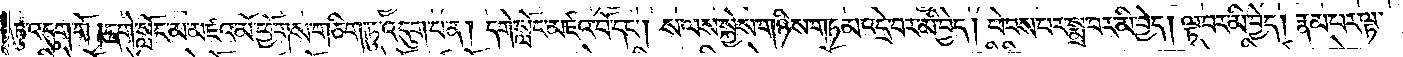ཏུ་འདུག་གོ །དགེ་སློང་མ་མཛའ་མོ་ཕྱོགས་གཅིག་ཏུ་འདུག་པ་ན། དགེ་སློང་མཛའ་བོ་དང༌། ས་ལས་སྐྱེས་གཉིས་གཏམ་འདྲེ་བར་མི་བྱེད། ཕེབས་པར་སྨྲ་བར་མི་བྱེད། ལྟ་བར་མི་བྱེད། རྣམ་པར་ལྟ་
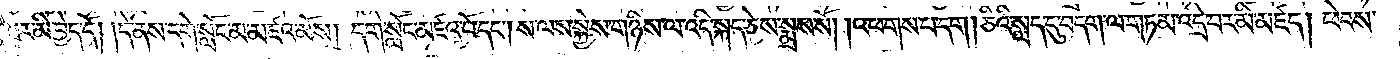བར་མི་བྱེད་དོ། །དེ་ནས་དགེ་སློང་མ་མཛའ་མོས། དགེ་སློང་མཛའ་བོ་དང༌། ས་ལས་སྐྱེས་གཉིས་ལ་འདི་སྐད་ཅེས་སྨྲས་སོ། །འཕགས་པ་དག །ཅིའི་སླད་དུ་བདག་ལ་གཏམ་འདྲེ་བར་མི་མཛད། ཕེབས་
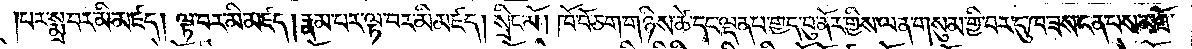པར་སྨྲ་བར་མི་མཛད། ལྟ་བར་མི་མཛད། རྣམ་པར་ལྟ་བར་མི་མཛད། སྲིང་མོ། ཁོ་བོ་ཅག་གཉིས་ཚེ་དང་ལྡན་པ་གྱད་བུ་ནོར་གྱིས་ལན་གསུམ་གྱི་བར་དུ་ཁ་ཟས་ངན་པས་མཐོ་
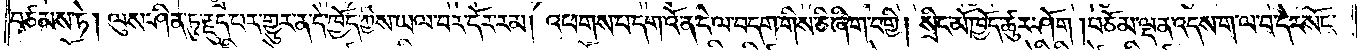བཙམས་ཏེ། ལུས་ཤིན་ཏུ་རྗུད་པར་གྱུར་ན་དེ་ཁྱོད་ཀྱིས་ཡལ་བར་དོར་རམ། འཕགས་པ་དག་འོ་ན་དེ་ལ་བདག་གིས་ཅི་ཞིག་བགྱི། སྲིང་མོ་ཁྱོད་ཚུར་ཤོག །བཅོམ་ལྡན་འདས་ག་ལ་བ་དེར་སོང་
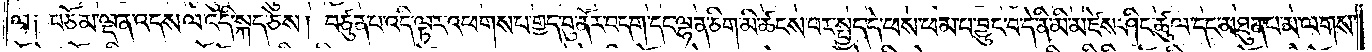ལ། བཅོམ་ལྡན་འདས་ལ་འདི་སྐད་ཅེས། བཙུན་པ་འདི་ལྟར་འཕགས་པ་གྱད་བུ་ནོར་བདག་དང་ལྷན་ཅིག་མི་ཚངས་པར་སྤྱད་དེ་ཕས་ཕམ་པ་བྱུང་བ་དེ་ནི་མི་མཛེས་ཤིང་ཚུལ་དང་མཐུན་པ་མ་ལགས་
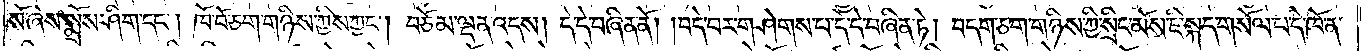སོ་ཞེས་སྨྲོས་ཤིག་དང༌། ཁོ་བོ་ཅག་གཉིས་ཀྱིས་ཀྱང༌། བཅོམ་ལྡན་འདས། དེ་དེ་བཞིན་ནོ། །བདེ་བར་གཤེགས་པ་དེ་དེ་བཞིན་ཏེ། བདག་ཅག་གཉིས་ཀྱི་སྲིང་མོས་ཇི་སྐད་གསོལ་པ་དེ་ཁོ་ན་
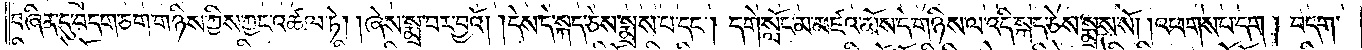བཞིན་དུ་བདག་ཅག་གཉིས་ཀྱིས་ཀྱང་འཚལ་ཏེ། །ཞས་སྨྲ་བར་བྱའོ། །དེས་དེ་སྐད་ཅེས་སྨྲས་པ་དང༌། དགེ་སློང་མ་མཛའ་མོས་དེ་གཉིས་ལ་འདི་སྐད་ཅེས་སྨྲས་སོ། །འཕགས་པ་དག། བདག་
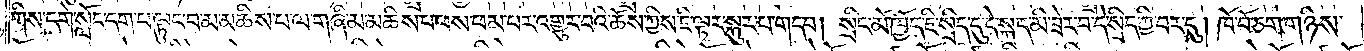གིས་དགེ་སློང་དག་པ་ལྟུང་བ་མ་མཆིས་པ་ལ་གཞི་མ་མཆིས་པ་ཕས་ཕམ་པར་འགྱུར་བའི་ཆོས་ཀྱིས་ཇི་ལྟར་སྐུར་པ་གདབ། སྲིང་མོ་ཁྱོད་ཇི་སྲིད་དུ་དེ་སྐད་མི་ཟེར་བ་དེ་སྲིད་ཀྱི་བར་དུ། ཁོ་བོ་ཅག་གཉིས་
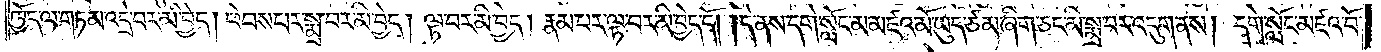ཁྱོད་ལ་གཏམ་འདྲེ་བར་མི་བྱེད། ཕེབས་པར་སྨྲ་བར་མི་བྱེད། ལྟ་བར་མི་བྱེད། རྣམ་པར་ལྟ་བར་མི་བྱེད་དོ། །དེ་ནས་དགེ་སློང་མ་མཛའ་མོ་ཡུད་ཙམ་ཞིག་ཅང་མི་སྨྲ་བར་འདུག་ནས། དགེ་སློང་མཛའ་བོ་
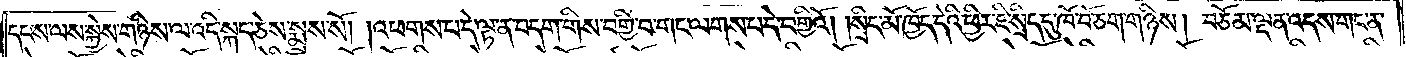དང་ས་ལས་སྐྱེས་གཉིས་ལ་འདི་སྐད་ཅེས་སྨྲས་སོ། །འཕགས་པ་དེ་ལྟ་ན་བདག་གིས་བགྱི་བ་གང་ལགས་པ་དེ་བགྱིའོ། །སྲིང་མོ་ཁྱོད་དེའི་ཕྱིར་ཇི་སྲིད་དུ་ཁོ་བོ་ཅག་གཉིས། བཅོམ་ལྡན་འདས་གང་ན་
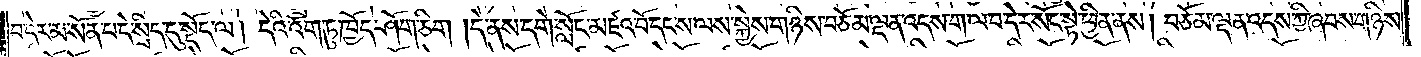བ་དེར་མ་སོན་པ་དེ་སྲིད་དུ་སྡོད་ལ། དེའི་འོག་ཏུ་ཁྱོད་ཤོག་ཅིག །དེ་ནས་དགེ་སློང་མཛའ་བོ་དང་ས་ལས་སྐྱེས་གཉིས་བཅོམ་ལྡན་འདས་ག་ལ་བ་དེར་སོང་སྟེ་ཕྱིན་ནས། བཅོམ་ལྡན་འདས་ཀྱི་ཞབས་གཉིས་
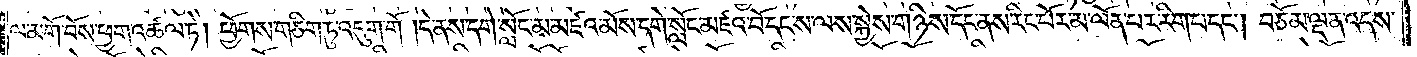ལ་མགོ་བོས་ཕྱག་འཚལ་ཏེ། ཕྱོགས་གཅིག་ཏུ་འདུག་གོ །དེ་ནས་དགེ་སློང་མ་མཛའ་མོས་དགེ་སློང་མཛའ་བོ་དང་ས་ལས་སྐྱེས་གཉིས་དོང་ནས་རིང་པོར་མ་ལོན་པར་རིག་པ་དང༌། བཅོམ་ལྡན་འདས་
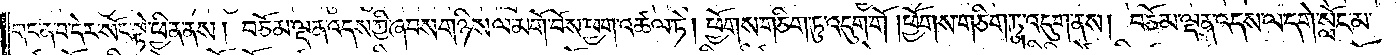གང་ན་བ་དེར་སོང་སྟེ་ཕྱིན་ནས། བཅོམ་ལྡན་འདས་ཀྱི་ཞབས་གཉིས་ལ་མགོ་བོས་ཕྱག་འཚལ་ཏེ། ཕྱོགས་གཅིག་ཏུ་འདུག་གོ །ཕྱོགས་གཅིག་ཏུ་འདུག་ནས། བཅོམ་ལྡན་འདས་ལ་དགེ་སློང་མ་
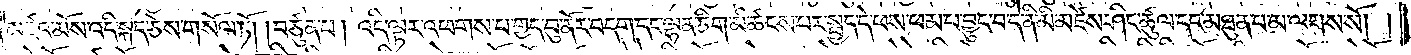མཛའ་མོས་འདི་སྐད་ཅེས་གསོལ་ཏོ། །བཙུན་པ། འདི་ལྟར་འཕགས་པ་གྱད་བུ་ནོར་བདག་དང་ལྷན་ཅིག་མི་ཚངས་པར་སྤྱད་དེ་ཕས་ཕམ་པ་བྱུང་བ་དེ་ནི་མི་མཛེས་ཤིང་ཚུལ་དང་མཐུན་པ་མ་ལགས་སོ། །
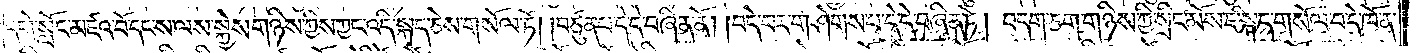དགེ་སློང་མཛའ་བོ་དང་ས་ལས་སྐྱེས་གཉིས་ཀྱིས་ཀྱང་འདི་སྐད་ཅེས་གསོལ་ཏོ། །བཙུན་པ་དེ་དེ་བཞིན་ནོ། །བདེ་བར་གཤེགས་པ་དེ་དེ་བཞིན་ཏེ། བདག་ཅག་གཉིས་ཀྱི་སྲིང་མོས་ཇི་སྐད་གསོལ་བ་དེ་ཁོ་ན་
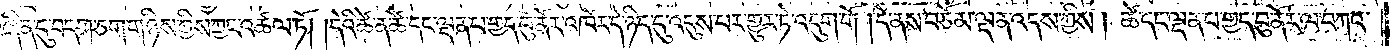བཞིན་དུ་བདག་ཅག་གཉིས་ཀྱིས་ཀྱང་འཚལ་ཏོ། །དེའི་ཚེ་ན་ཚེ་དང་ལྡན་པ་གྱད་བུ་ནོར་འཁོར་དེ་ཉིད་དུ་འདུས་པར་གྱུར་ཏེ་འདུག་གོ། །དེ་ནས་བཅོམ་ལྡན་འདས་ཀྱིས། ཚེ་དང་ལྡན་པ་གྱད་བུ་ནོར་ལ་བཀའ་
